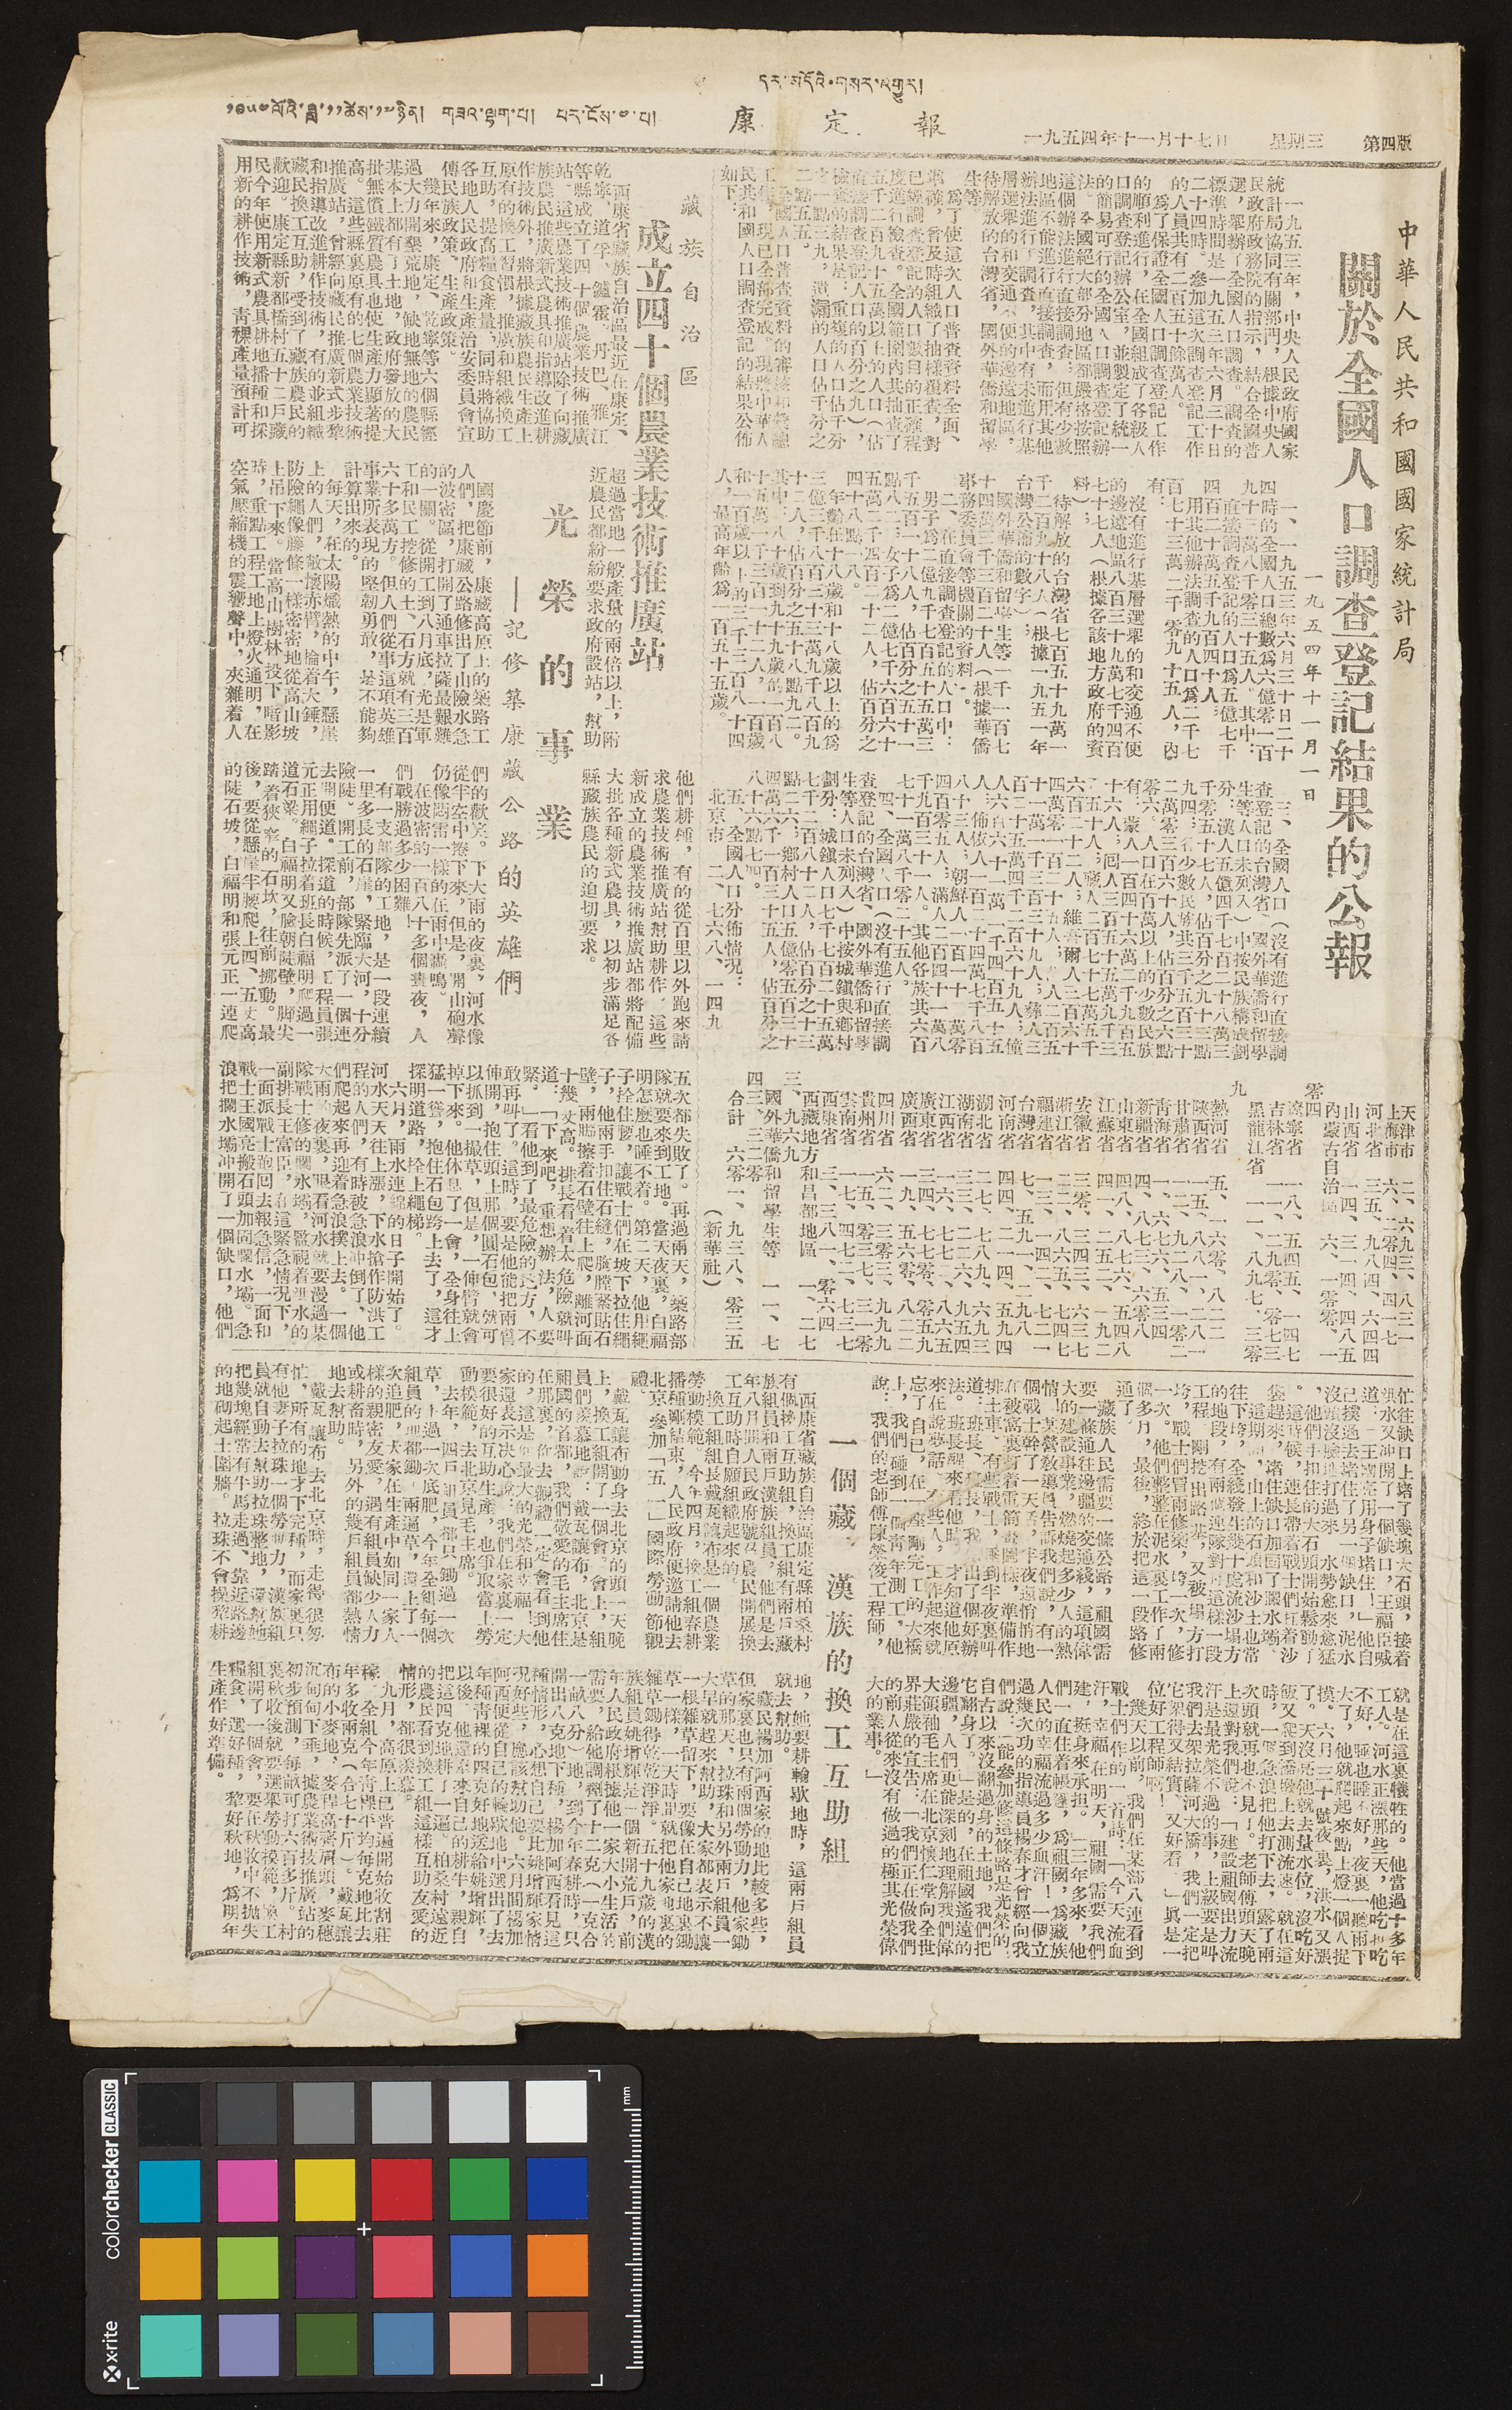དར་མདོའི་གསར་འགྱུར།
༡༩༥༤ལོའི་ཟླ་༡༡ཚེས་༡༧ཉིན། གཟའ་ལྷག་པ། པར་ངོས་༤་པ། 康 定 報 一九五四年十一月十七日 星期三 第四版
中華人民共和國國家統計局
關於全國人口調查登記結果的公報
一九五四年十一月一日
一九五三年，中央人民政府國家
統計局協同有關部門，根據中央人
民政府政務院的指示，結合全國普
選，舉辦了全國人口調查。調查的
標準時間是一九五三年六月三十日
二十四時。參加這次調查登記工作
的人員共有二百五十餘萬人。
爲了保證全國人口調查登記工作
的順利進行，在全國組成了各級人
口調查登記辦公室，並制定了統一
的簡易可行的全國人口調查登記辦
法。全國絕大部分地區都嚴格按照
這個辦法進行直接調查；但有少數
地區不能進行直接調查，而用其他
辦法進行了調查，其中有未進行基
層選舉的和交通不便的邊遠地區，
待解放的台灣省，國外華僑和留學
生等。
爲了使這次人口普查資料全面、
準確，曾及時組織了抽樣覆查，對
已經調查登記的人口數目的正確程
度進行檢查。全國範圍內共抽查了
五千二百九十五萬以上的人口（佔
直接調查登記人口的百分之九），
檢查的結果是：重複的人口佔千分
之一點三九，遺漏的人口佔千分之
二點五五。
全國人口普查資料的審核和彙總
工作，現已全部完成。現將中華人
民共和國人口調查登記的結果公佈
如下：
一、一九五五年六月三十日二十
四時的全國人口總數爲六億零一百
九十三萬八千零三十五人。其中：
直接調查登記的人口爲五億七千
四百二十萬五千九百四十人；
用其他辦法調查的人口爲二千七
百七十三萬二千零九十五人，內
有：
沒有進行基層選舉的和交通不便
的邊遠地區八百三十九萬七千四百
七十七人（根據各該地方政府的資
料）：
待解放的台灣省七百五十九萬一
千二百九十八人（根據一九五一年
台灣公佈的數字）；
國外華僑和留學生等一千一百七
十四萬三千三百二十人（根據華僑
事務委員會等機關的資料）。
二、在直接調查登記的人口中：
男子爲二億九千七百五十五萬三
千五百一十八人，佔百分之五十一
點八二；女子爲二億七千六百六十
五萬二千四百二十二人，佔百分之
四十八點一八。
年齡在十八歲和十八歲以上的爲
三億三千八百三十三萬九千八百九
十二人，佔百分之五十八點九二。
其中：八十歲到九十九歲的一百八
十五萬一千三百一十二人，一百歲
和一百歲以上的三千三百八十四
人，最高年齡爲一百五十五歲。
三、全國人口（沒有進行直接調
查登記的台灣省、國外華僑和留學
生等人口未列入）中按民族構成劃
分：漢人五億四千七百二十八萬三
千零五十七人，佔百分之九十三點
九四；各少數民族共三千五百三十
二萬零三百六十人，佔百分之六點
零六。人口在百萬以上的少數民族
有：蒙人一百四十六萬二千九百五
十六人；囘人三百五十五萬九千三
百五十人；藏人二百七十七萬五千
六百二十二人；維吾爾人三百六十
四萬零一百二十五人；苗人二百五
十一萬一千三百三十九人；彝人三
百二十五萬四千二百六十九人；僮
人六百六十一萬一千四百五十五
人；佈依人一百二十四萬七千八百
八十三人；朝鮮人一百一十二萬零
四百零五人；滿人二百四十一萬八
千九百三十一人。其他各族共六百
七十一萬八千零二十五人。
四、全國人口（沒有進行直接調
查登記的台灣省、國外華僑和留學
生等人口未列入）中按城鎮與鄉村
劃分：城鎮人口七千七百二十五萬
七千二百八十二人，佔百分之十三
點二六；鄉村人口五億零五百三十
四萬六千一百三十五人，佔百分之
八十六點七四。
五、全國人口分佈情況：
北京市 二、七六八、一四九
天津市 二、六九三、八三一
上海市 六、二零四、四一七
河北省 三五、九八四、六四四
山西省 一四、三一四、四八五
內蒙古自治區 六、一零零、一
零四
遼寧省 一八、五四五、一四七
吉林省 一一、二九零、零七三
黑龍江省 一一、八九七、三零
九
熱河省 五、一六零、八二二
陝西省 一五、八八一、二八一
甘肅省 一二、九二八、一零二
靑海省 一、六七六、五三四
新疆省 四、八七三、六零八
山東省 四八、八七六、五四八
江蘇省 四一、二五二、一九二
安徽省 三零、三四三、六三七
浙江省 二二、八六五、七四七
福建省 一三、一四二、七二一
台灣省 七、五九一、二九八
河南省 四四、二一四、五九四
湖北省 二七、七八九、六九三
湖南省 三三、二二六、九五四
江西省 一六、七七二、八六五
廣東省 三四、七七零、零五九
廣西省 一九、五六零、八二二
四川省 六二、三零三、九九九
貴州省 一五、零三七、三一零
雲南省 一七、四七二、七三七
西康省 三、三八一、零六四
西藏地方和昌都地區 一、二七
三、九六九
國外華僑和留學生等 一一、七
四三、三二零
合計 六零一、九三八、零三五
（新華社）
藏族自治區
成立四十個農業技術推廣站
西康省藏族自治區最近在康定、
乾寧、道孚、爐霍、丹巴、雅江
等縣成立了四十個農業技術推廣
站。這些農業技術推廣站除了向藏
族農民推廣新式農具和指導改進耕
作技術外，將根據藏族農民生產上
原有的換工習慣，推廣和組織換工
互助，提高糧食產量；同時將協助
各地人民政府和生產治安委員會宣
傳民族政策、生產政策。
幾年來，康定、乾寧等六個縣經
過大力開墾荒地，缺地無地的農民
基本上都有了土地，政府發放的大
批無償鐵質農具也使生產力顯著提
高。這些縣裏原有的七個農業技術
推廣站，曾經向藏民推廣新式步犂
和指導改進耕作技術，有的並組織
藏民換工互助，受到了藏族農民的
歡迎。康定縣新都橋村五十二戶藏
民今年使用新式農具耕地播種和採
用新的耕作技術，靑稞產量預計可
超過當地一般產量的兩倍以上，附
近農民都紛紛要求政府設站，幫助
他們耕種，有的從百里以外跑來請
求農業技術推廣站幫助耕作，這些
新成立的農業技術推廣站都將配備
大批各種新式農具，以初步滿足各
縣藏族農民的迫切要求。
光 榮 的 事 業
——記修築康藏公路的英雄們
國慶節前，康藏高原上的築路工
人們，把康藏公路修出了山險水急
的波密區，打開了通車拉薩最艱難
的一關。從開工到八月底，光是軍
工和民工挖修的土、石方就有三百
六十多萬方。但人們從事這項英雄
事業所表現的堅韌勇敢，是不能夠
計算出來的。
每天，在太陽熾熱的中午，懸崖
上的人們，敞懷赤臂，掄着大錘，
防險繩像藤條一樣祕密地從高山坡
上吊下來。當高山樹林投下暗影
時，重點工程工地上燈火通明，在
空氣壓縮機的震響聲中，夾雜着人
們的歡笑。下大雨的夜裏，河水像
從半空中捲下來，但是，開山砲聲
仍像悶雷一樣的在雨中轟鳴。
在波密的一百八十多個晝夜，人
們戰勝過多少困難！
有一支部隊的工地，是一段連續
一里多長的石崖，緊鄰大河，十分
險陡。開工前，部隊先派了一個連
去開便道。探道的時候，工程員張
元正用繩子拉着班長白福明爬過一
道石渠。白福明又臉朝陡壁，腳尖
踏着狹窄的石坎，往前挪動。最
後，要從懸崖半腰爬上四、五丈高
的陡石坡，白福明和張元正一連爬
五次都失敗了。再過兩天，築路部
隊就要來到工地。當天夜裏，白福
明怎麼也睡不着。第二天，他用繩
子拴住腰，讓戰士們在坡下拉住繩
子，他兩手扣住石縫，胸膛緊貼石
壁，兩腳擦着石壁往上爬，離河面
十幾丈高。排長看着太危險就叫
道：「下來吧，重想辦法，人要
緊。」看他到了最危險的地方，不
敢再叫了。這時，要是他能把兩臂
伸開，抱住頭上那個圓石包，就可
以抓到一撮草，但是，一伸臂就會
掉下來。他休息了一會，全身往上
猛一聳，抱住石包跨上去了，這才
探名道路，拴上繩梯。
六月，雨水連綿的日子開始了。
河水天天往上漲，下水搶作防洪工
程的人們，有時被急浪沖倒了，他
們爬起來再迎着急浪撲上去。一個
大雨的夜裏，眼看河水就要漫過某
隊戰士修的攔水壩，監視着洪水的
副排長王富臣，在這緊急情況下，
一面派戰士跑囘去報急信，一面和
戰士王國亮搬石頭加固攔水壩。急
浪把攔水壩沖開了一個缺口，他們
忙往缺口上堵了幾塊大石頭，接着
洪水又沖開了一個缺口，王福臣喊
道：「王國亮用身子堵住！」他自
己撲過去堵住了另一個缺口，泥水
沒頭沒臉地打過來，水勢愈來愈猛
，他們手扣住的大石頭開始鬆動了
。這時候，連長帶着戰士們扛着沙
袋趕來，堵住缺口加固了攔水壩。
這期間，山上的石頭和沙土也常
往下垮，全綫發生幾十處流沙塌方
的低端，有兩個連隊對於這樣一段
工程，剛挖出路基，又被塌方打
垮，戰士們冒雨修築，垮一次，修
一次。他們整整在泥水裏工作了兩
個多月，最後，終於把這一段路修
通了。
藏族人民需要一條公路，祖國需
要一條通往邊疆的交通綫，這項偉
大的建設事業，燃燒起多少人的熱
情！某營敎導員告訴我們說，有一
個戰士幹了一天活，半夜還悄悄地
在被窩裏打着電筒畫圖樣，準備作
排土車。有些戰士，睡到半夜裏叫
道：班長、班長，我想出了個好辦
法。班長醒來看他時，才知道他原
來在說夢話。有些人，工作起來就
忘了自己，在一座剛完工的大橋
上，我們碰到一個青年測工，他
說：我們的老師傅陳榮俊工程師，
就是在這裏犧牲的。他當過十多年
供熱。河水正漲那些天，他吃也吃
不好，睡也睡不好，夜裏一聽雨下
大了，他就爬起來點上燈一個人捉
摸。六月三十號夜裏，洪水又漲
了。天沒亮它就去量水位，沒吃好
飯又爬到橋墩上去測流速。就在這
時，一個急浪把他打下去，露了兩
次頭就再也不見了。老師傅頭天晚
上還對我們說：「建設祖國出力流
汗是最光榮不過的事，上級要是叫
我們去架拉薩河大橋，我們一定把
它架得又結實、又好看。」眞是一
位好工程師啊！
幾天以前，我們在某部八連看到
戰士們作的一首詩：「今天流血
汗，幸福在明天，祖國需要我們
建，挺身來承担。」三年多來，他
們一直住着帳篷，爲祖國，爲藏族
人民的幸福流過多少血汗！一個立
過幾次功的指導員楊春才曾經向我
們說：「能參加修這條路是光榮的，
自古以來沒翻過身的土地，我們把
它翻身了。」是的，在祖國遙遠的
邊疆，人們更能深刻地理解我們偉
大領袖毛主席在北京懷仁堂向全世
界莊嚴的宣告：「我們正在做我們
的前人從來沒有做過的極其光榮偉
大的事業。」
一個藏漢族的換工互助組
西康省藏族自治區康定縣柏桑村
有個換工互助組，換工組有兩戶藏
族組員和兩戶漢族組員，他們是去
年八月間人民政府號召農民開展換
工互助時自願組織起來的。
換工組組長戴瓦讓布是一個農業
勞動模範。今年四月，換工組春耕
播種剛結束，人民政府便邀請他去
北京參加「五一」國際勞動節觀
禮。
戴瓦讓布動身去北京的頭一天晚
上，換工組開了一個會。會上，組
員們羨慕地說：戴瓦讓布，北京是
祖國的首都，我們敬愛的毛主席住
在那裏，你去觀禮一定會看到他
的，這是你最大的光榮和幸福！大
家還表示決心說：我們在家裏一定
要很好的互助生產，也爭取當上勞
動模範，去北京見毛主席。
去年，四戶組員都只鋤過一次
草，上過一次底肥，今年全組每個
組員的地都鋤了兩遍草，還上了一
次追肥，大家在生產中如同一家人
樣的親密友愛，遇有組員缺少人力
或耕畜時，另外的幾戶組員都熱情
地去幫助。
戴瓦讓布去北京時，走得很匆
忙，所有的地才下完種，而家裏只
有他妻子拉珠一個勞動力，漢族組
員就自動去幫助拉珠整地，還幫她
把幾塊經常有牛馬走過、靠近路邊
的地砌起土圍牆。拉珠不會操犂耕
地，她要耕輪歇地時，這兩戶組員
就去幫助。
藏民楊加阿西家的地比較多些，
但家裏也只有兩個勞動力，他家鋤
草的那天，拉珠和另外兩戶組員一
大早就趕來幫助，大家都表示不讓
一根雜草留下，要像在自己地裏鋤
草一樣，一天時間就把他家地裏的
雜草鋤得乾乾淨淨。五十九歲的漢
族組員姚增輝是一個新開荒戶，前
年人民政府根據他一家大小生活的
需要，給他調劑了十二克（一克合
一畝八分）地，到今年春耕時，只
開出八克地下種，楊加阿西看見這
種情形，心想自己要比姚增輝家情
況好些，應該幫助他。六月間楊加
阿西便從自己的輪歇地中選出了去
年種靑稞的四克好地送給姚增輝，
以後，他還牽來自己的耕牛，親自
把這四克地耕了一遍。柏桑村遠近
的農民看到換工組這樣互助友愛的
情形，都很羨慕。
九月，高原上已普遍開始收割莊
稼，全組今年靑稞平均每克地比去
年多收兩克（合七十斤）。戴瓦讓
布的小麥地，麥稈高齊肩頭，麥穗
沉甸甸下垂，據農業術技推廣站的
初步預測，每畝可打六百多斤。村
裏秋收後就要選舉勞動模範，換工
組開了一個會，要在秋收中不拋失
糧食，選好種，犂好秋地，爲明年
生產做好準備。
